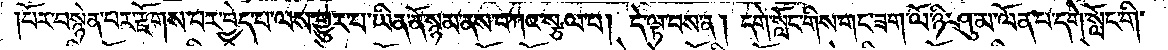པོར་བསྙེན་པར་རྫོགས་པར་བྱེད་པ་ལས་གྱུར་པ་ཡིན་ནོ་སྙམ་ནས་བཀའ་སྩལ་བ། དེ་ལྟ་བས་ན། དགེ་སློང་གིས་གང་ཟག་ལོ་ཉི་ཤུ་མ་ལོན་པ་དགེ་སློང་གི་
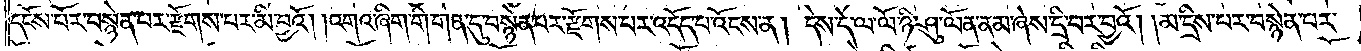དངོས་པོར་བསྙེན་པར་རྫོགས་པར་མི་བྱའོ། །འགའ་ཞིག་གི་གན་དུ་བསྙེན་པར་རྫོགས་པར་འདོད་པ་འོངས་ན། དེས་དེ་ལ་ལོ་ཉི་ཤུ་ལོན་ནམ་ཞེས་དྲི་བར་བྱའོ། །མ་དྲིས་པར་བསྙེན་པར་
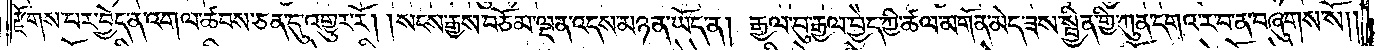རྫོགས་པར་བྱེད་ན་འགལ་ཚབས་ཅན་དུ་འགྱུར་རོ། །སངས་རྒྱས་བཅོམ་ལྡན་འདས་མཉན་ཡོད་ན། རྒྱལ་བུ་རྒྱལ་བྱེད་ཀྱི་ཚལ་མགོན་མེད་ཟས་སྦྱིན་གྱི་ཀུན་དགའ་ར་བ་ན་བཞུགས་སོ། །
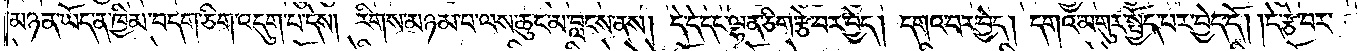མཉན་ཡོད་ན་ཁྱིམ་བདག་ཅིག་འདུག་པ་དེས། རིགས་མཉམ་པ་ལས་ཆུང་མ་བླངས་ནས། དེ་དེ་དང་ལྷན་ཅིག་རྩེ་བར་བྱེད། དགའ་བར་བྱེད། དགའ་མགུར་སྤྱོད་པར་བྱེད་དོ། །དེ་རྩེ་བར་
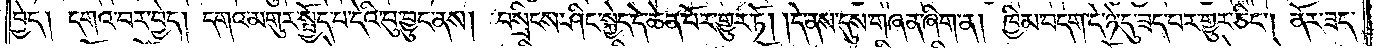བྱེད། དགའ་བར་བྱེད། དགའ་མགུར་སྤྱོད་པ་དེའི་བུ་བྱུང་ནས། བསྲིངས་ཤིང་སྐྱེད་དེ་ཆེན་པོར་གྱུར་ཏོ། །དེ་ནས་དུས་གཞན་ཞིག་ན། ཁྱིམ་བདག་དེ་ཉེ་དུ་ཟད་པར་གྱུར་ཅིང༌། ནོར་ཟད་
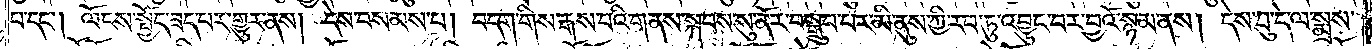བ་དང༌། ལོངས་སྤྱོད་ཟད་པར་གྱུར་ནས། དེས་བསམས་པ། བདག་གིས་རྒས་པའི་གནས་སྐབས་སུ་ནོར་བསྒྲུབ་པར་མི་ནུས་ཀྱི་རབ་ཏུ་འབྱུང་བར་བྱའོ་སྙམ་ནས། དེས་བུ་དེ་ལ་སྨྲས་
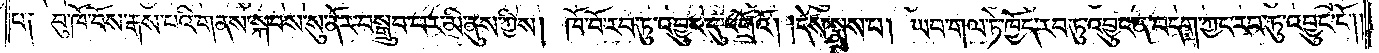པ༑ བུ་ཁོ་བོས་རྒས་པའི་གནས་སྐབས་སུ་ནོར་བསྒྲུབ་པར་མི་ནུས་ཀྱིས། ཁོ་བོ་རབ་ཏུ་འབྱུང་དུ་འགྲོའོ། །དེས་སྨྲས་པ། ཡབ་གལ་ཏེ་ཁྱོད་རབ་ཏུ་འབྱུང་ན་བདག་ཀྱང་རབ་ཏུ་འབྱུང་ངོ༌། །
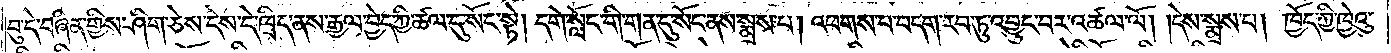བུ་དེ་བཞིན་གྱིས་ཤིག་ཅེས་དེས་དེ་ཁྲིད་ནས་རྒྱལ་བྱེད་ཀྱི་ཚལ་དུ་སོང་སྟེ། དགེ་སློང་གི་གན་དུ་སོང་ནས་སྨྲས་པ། འཕགས་པ་བདག་རབ་ཏུ་འབྱུང་བར་འཚལ་ལོ། །དེས་སྨྲས་པ། ཁྱོད་ཀྱི་ཁྱེའུ་
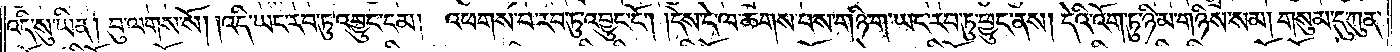འདི་སུ་ཡིན། བུ་ལགས་སོ། །འདི་ཡང་རབ་ཏུ་འབྱུང་ངམ། འཕགས་པ་རབ་ཏུ་འབྱུང་ངོ༌། །དེས་དེ་ལ་ཆགས་པས་གཉི་ག་ཡང་རབ་ཏུ་ཕྱུང་ནས། དེའི་འོག་ཏུ་ཉི་མ་གཉིས་སམ། གསུམ་དུ་ཀུན་
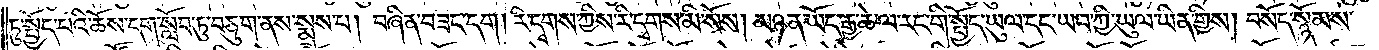ཏུ་སྤྱོད་པའི་ཆོས་དག་སློབ་ཏུ་བཅུག་ནས་སྨྲས་པ། བཞིན་བཟང་དག། རི་དྭགས་ཀྱིས་རི་དྭགས་མི་སོས། མཉན་ཡོད་རྒྱ་ཆེ་ལ་རང་གི་སྤྱོད་ཡུལ་དང་ཡབ་ཀྱི་ཡུལ་ཡིན་གྱིས། བསོད་སྙོམས་
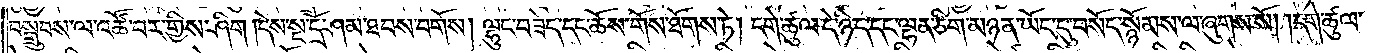བསྒྲུབས་ལ་འཚོ་བར་གྱིས་ཤིག །དེས་སྔ་དྲོ་ཤམ་ཐབས་བགོས། ལྷུང་བཟེད་དང་ཆོས་གོས་ཐོགས་ཏེ། དགེ་ཚུལ་དེ་ཉིད་དང་ལྷན་ཅིག་མཉན་ཡོད་དུ་བསོད་སྙོམས་ལ་ཞུགས་སོ། །དགེ་ཚུལ་
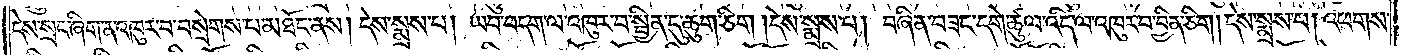དེས་སྲང་ཞིག་ན་འཁུར་བ་བསྲེགས་པ་མཐོང་ནས། དེས་སྨྲས་པ། ཡབ་བདག་ལ་འཁུར་བ་སྦྱིན་དུ་ཆུག་ཅིག །དེས་སྨྲས་པ། བཞིན་བཟང་དགེ་ཚུལ་འདི་ལ་འཁུར་བ་བྱིན་ཅིག་དེས་སྨྲས་པ། འཕགས་
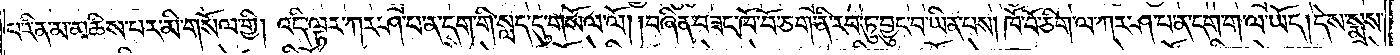པ་རིན་མ་མཆིས་པར་མི་གསོལ་གྱི། འདི་ལྟར་ཀར་ཤ་པ་ན་དག་གི་སླད་དུ་གསོལ་ལོ། །བཞིན་བཟང་ཁོ་བོ་ཅག་ནི་རབ་ཏུ་བྱུང་བ་ཡིན་པས། ཁོ་བོ་ཅིག་ལ་ཀར་ཤ་པ་ན་དག་ག་ལ་ཡོད། དེས་སྨྲས་
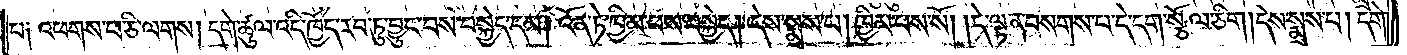པ༑ འཕགས་པ་ཅི་ལགས། དགེ་ཚུལ་འདི་ཁྱོད་རབ་ཏུ་བྱུང་བས་བསྐྱེད་དམ། འོན་ཏེ་ཁྱིམ་པས་བསྐྱེད། དེས་སྨྲས་པ། ཁྱིམ་པས་སོ། །དེ་ལྟ་ན་བསགས་པ་དེ་དག་སྩོལ་ཅིག །དེས་སྨྲས་པ། དགེ་
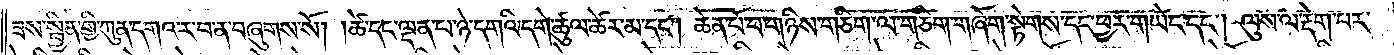ཟས་སྦྱིན་གྱི་ཀུན་དགའ་ར་བ་ན་བཞུགས་སོ། །ཚེ་དང་ལྡན་པ་ཉེ་དགའི་དགེ་ཚུལ་ཚེར་མ་དང༌། ཆེན་པོ་བ་གཉིས་གཅིག་ལ་གཅིག་གཞོག་སྟེགས་དང་ཕྱར་གཡེང་དང༌། ལུས་ལ་རྡེག་པར་
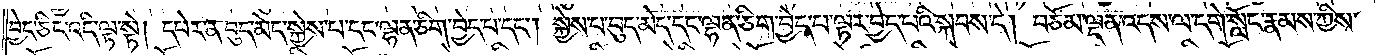བྱེད་ཅིང་འདི་ལྟ་སྟེ། དཔེར་ན་བུད་མེད་སྐྱེས་པ་དང་ལྷན་ཅིག་བྱེད་པ་དང༌། སྐྱེས་པ་བུད་མེད་དང་ལྷན་ཅིག་བྱེད་པ་ལྟར་བྱེད་པའི་སྐབས་དེ། བཅོམ་ལྡན་འདས་ལ་དགེ་སློང་རྣམས་ཀྱིས་
